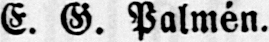E. G. Palmén.
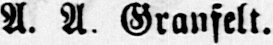A. A Granfelt.
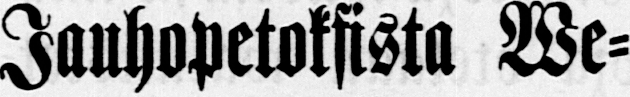Jauhopetoksista We-
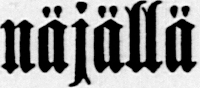näjällä
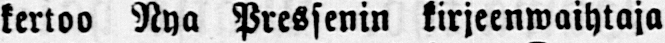kertoo Nya Pressenin kirjeenwaihtaja
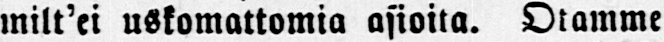milt'ei uskomattomia asioita. Otamme
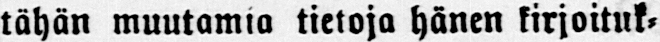tähän muutamia tietoja hänen kirjoituk-
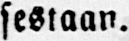sestaan.
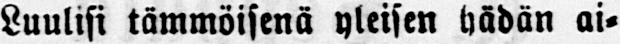Luulisi tämmöisenä yleisen hädän ai-
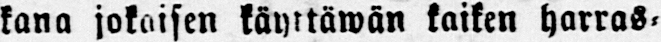kana jokaisen käyttäwän kaiken harras-
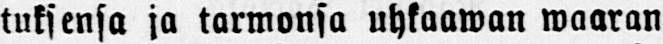tuksensa ja tarmonsa uhkaawan waaran
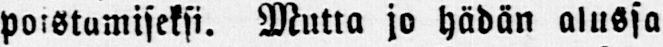poistamiseksi. Mutta jo hädän alussa
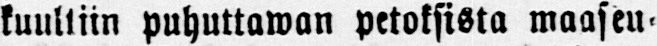kuultiin puhuttawan petoksista maaseu-
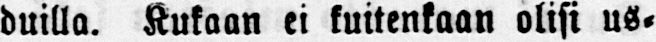duilla. Kukaan ei kuitenkaan olisi us-
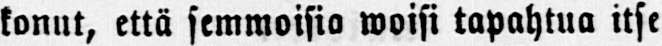konut, että semmoisia woisi tapahtua itse
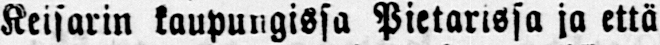Keisarin kaupungissa Pietarissa ja että
